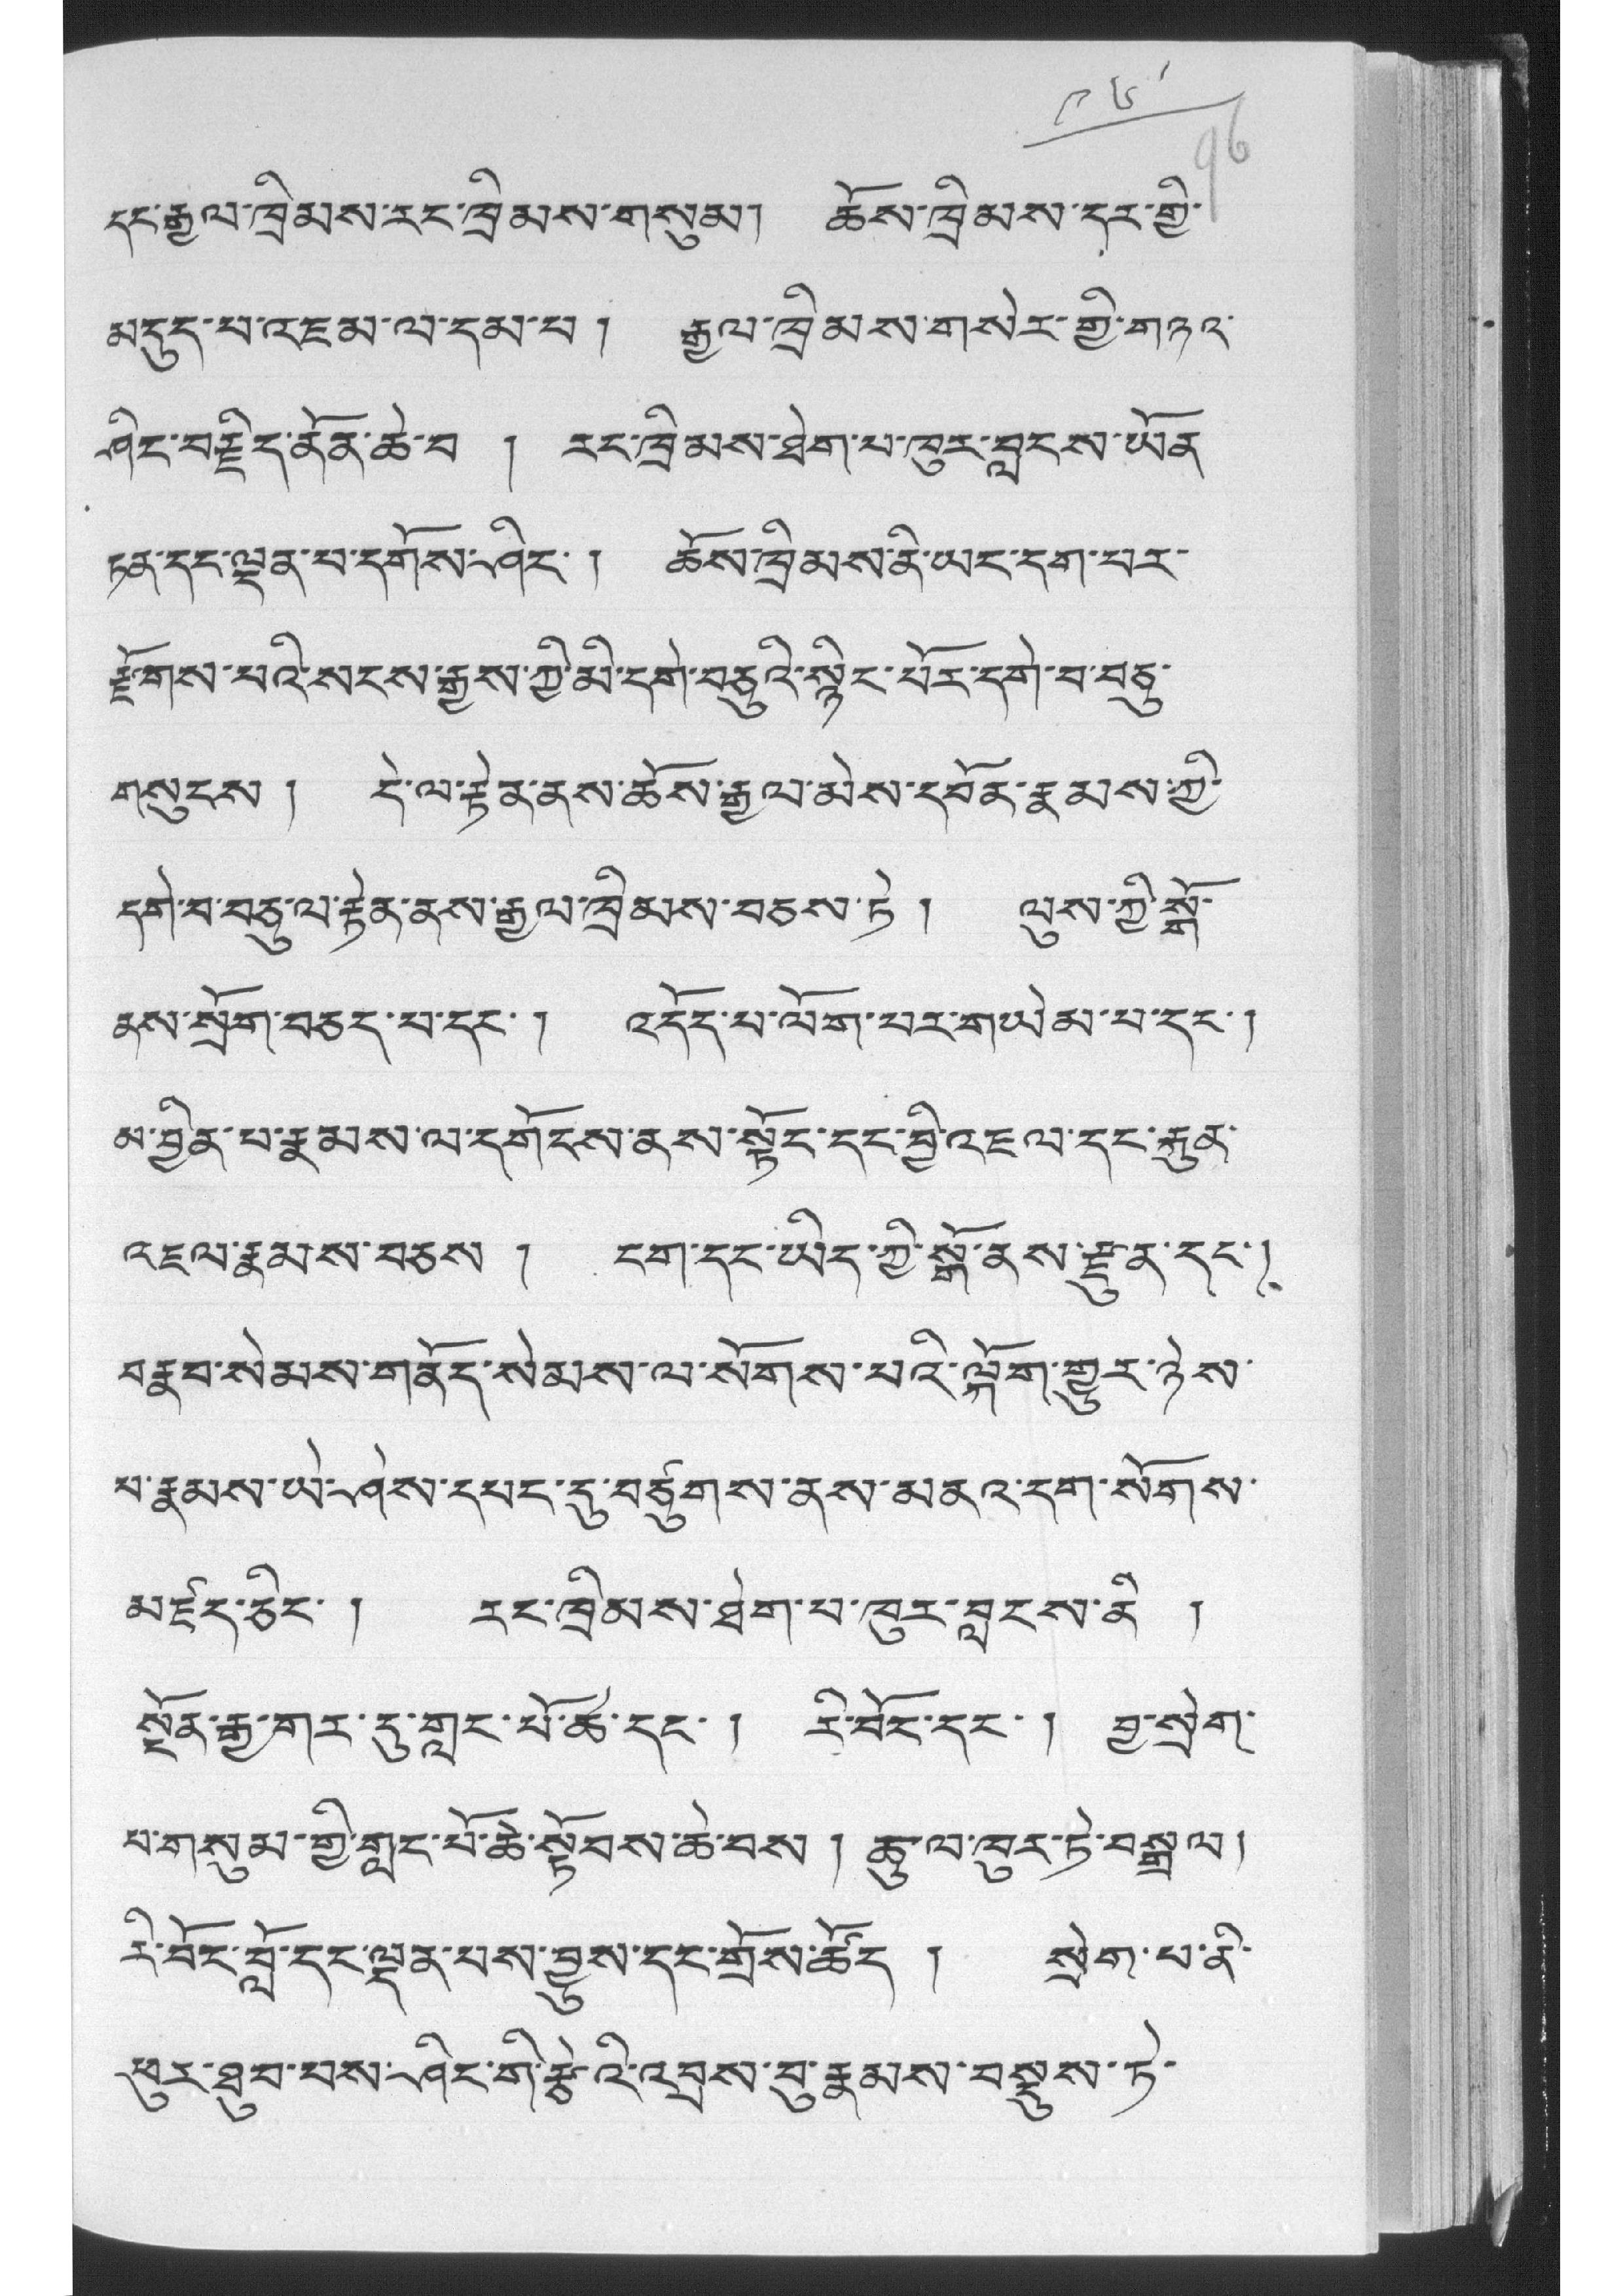༩༦
དང་རྒྱལ་ཁྲིམས་རང་ཁྲིམས་གསུམ། ཆོས་ཁྲིམས་དར་གྱི་
མདུད་པ་འཇམ་ལ་དམ་པ ། རྒྱལ་ཁྲིམས་གསེར་གྱི་གཉའ་
ཤིང་བརྗིད་ནོན་ཆེ་བ ། རང་ཁྲིམས་ཐེག་པ་ཁུར་བླངས་ཡོན་
ཏན་དང་ལྡན་པ་དགོས་ཤིང་། ཆོས་ཁྲིམས་ནི་ཡང་དག་པར་
རྫོགས་པའི་སངས་རྒྱས་ཀྱི་མི་དགེ་བཅུའི་སྙིང་པོར་དགེ་བ་བཅུ་
གསུངས ། དེ་ལ་རྟེན་ནས་ཆོས་རྒྱལ་མེས་དབོན་རྣམས་ཀྱི་
དགེ་བ་བཅུ་ལ་རྟེན་ནས་རྒྱལ་ཁྲིམས་བཅས་ཏེ ། ལུས་ཀྱི་སྒོ་
ནས་སྲོག་བཅད་པ་དང་། འདོད་པ་ལོག་པར་གཡེམ་པ་དང་།
མ་བྱིན་པ་རྣམས་ལ་དགོངས་ནས་སྟོང་དང་བྱི་འཇལ་དང་རྐུན་
འཇལ་རྣམས་བཅས ། ངག་དང་ཡིད་ཀྱི་སྒོ་ནས་རྫུན་དང་།
པ་རྣམས་སེམས་གནོད་སེམས་ལ་སོགས་པའི་ལྐོག་གྱུར་ཉེས་
མ་རྣམས་ཡང་ཤེས་དཔང་དུ་བཙུགས་ནས་མནའ་དག་སོགས་
མཛད་ཅིང་ ། རང་ཁྲིམས་ཐེག་བ་ཁུར་བླངས་ནི །
སྔོན་རྒྱ་གར་རུ་གླང་པོ་ཆེ་དང་། རི་བོང་དང་། བྱ་སྲེག་
པ་གསུམ་གྱི་གླང་པོ་ཆེ་སྟོབས་ཆེ་བས ། ཆུ་ལ་ཁུར་ཏེ་བསྒྲལ།
རི་བོང་བློ་དང་ལྡན་པས་བྱུས་དང་གྲོས་ཚོད ། སྲེག་པ་ནི་
ཕུར་ཐུབ་པས་ཤིང་གི་རྩེའི་འབྲས་བུ་རྣམས་བསྡུས་ཏེ་
